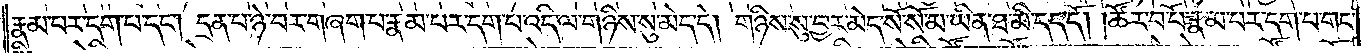རྣམ་པར་དག་པ་དང༌། དྲན་པ་ཉེ་བར་གཞག་པ་རྣམ་པར་དག་པ་འདི་ལ་གཉིས་སུ་མེད་དེ། གཉིས་སུ་བྱར་མེད་སོ་སོ་མ་ཡིན་ཐ་མི་དད་དོ། །ཚོར་བ་པོ་རྣམ་པར་དག་པ་གང་
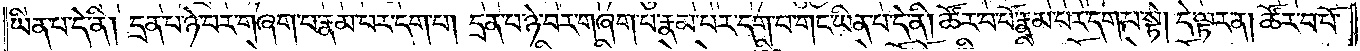ཡིན་པ་དེ་ནི། དྲན་པ་ཉེ་བར་གཞག་པ་རྣམ་པར་དག་པ། དྲན་པ་ཉེ་བར་གཞག་པ་རྣམ་པར་དག་པ་གང་ཡིན་པ་དེ་ནི། ཚོར་བ་པོ་རྣམ་པར་དག་པ་སྟེ། དེ་ལྟར་ན། ཚོར་བ་པོ་
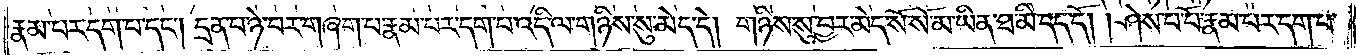རྣམ་པར་དག་པ་དང༌། དྲན་པ་ཉེ་བར་གཞག་པ་རྣམ་པར་དག་པ་འདི་ལ་གཉིས་སུ་མེད་དེ། གཉིས་སུ་བྱར་མེད་སོ་སོ་མ་ཡིན་ཐ་མི་དད་དོ། །ཤེས་པ་པོ་རྣམ་པར་དག་པ་
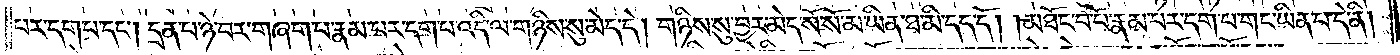པར་དག་པ་དང༌། དྲན་པ་ཉེ་བར་གཞག་པ་རྣམ་པར་དག་པ་འདི་ལ་གཉིས་སུ་མེད་དེ། གཉིས་སུ་བྱར་མེད་སོ་སོ་མ་ཡིན་ཐ་མི་དད་དོ། །མཐོང་བ་པོ་རྣམ་པར་དག་པ་གང་ཡིན་པ་དེ་ནི།
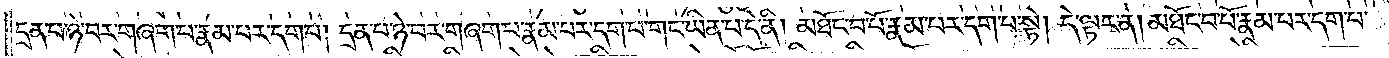དྲན་པ་ཉེ་བར་བཞག་པ་རྣམ་པར་དག་པ། དྲན་པ་ཉེ་བར་བཞག་པ་རྣམ་པར་དག་པ་གང་ཡིན་པ་དེ་ནི། མཐོང་བ་པོ་རྣམ་པར་དག་པ་སྟེ། དེ་ལྟར་ན། མཐོང་བ་པོ་རྣམ་པར་དག་པ་
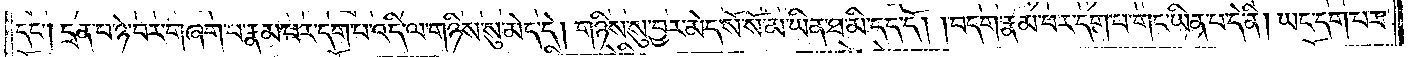དང༌། དྲན་པ་ཉེ་བར་བཞག་པ་རྣམ་པར་དག་པ་འདི་ལ་གཉིས་སུ་མེད་དེ། གཉིས་སུ་བྱར་མེད་སོ་སོ་མ་ཡིན་ཐ་མི་དད་དོ། །བདག་རྣམ་པར་དག་པ་གང་ཡིན་པ་དེ་ནི། ཡང་དག་པར་
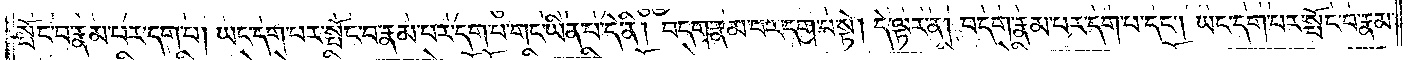སྤོང་བ་རྣམ་པར་དག་པ། ཡང་དག་པར་སྤོང་བ་རྣམ་པར་དག་པ་གང་ཡིན་པ་དེ་ནི། བདག་རྣམ་པར་དག་པ་སྟེ། དེ་ལྟར་ན། བདག་རྣམ་པར་དག་པ་དང༌། ཡང་དག་པར་སྤོང་བ་རྣམ་
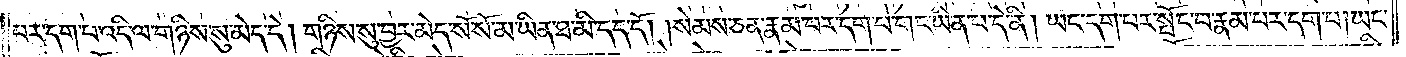པར་དག་པ་འདི་ལ་གཉིས་སུ་མེད་དེ། གཉིས་སུ་བྱར་མེད་སོ་སོ་མ་ཡིན་ཐ་མི་དད་དོ། །སེམས་ཅན་རྣམ་པར་དག་པ་གང་ཡིན་པ་དེ་ནི། ཡང་དག་པར་སྤོང་བ་རྣམ་པར་དག་པ། ཡང་
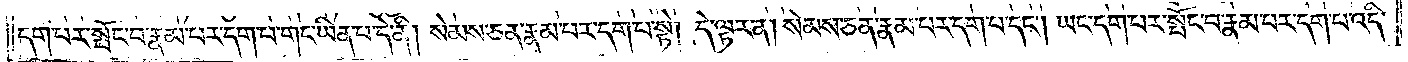དག་པར་སྤོང་བ་རྣམ་པར་དག་པ་གང་ཡིན་པ་དེ་ནི། སེམས་ཅན་རྣམ་པར་དག་པ་སྟེ། དེ་ལྟར་ན། སེམས་ཅན་རྣམ་པར་དག་པ་དང༌། ཡང་དག་པར་སྤོང་བ་རྣམ་པར་དག་པ་འདི་
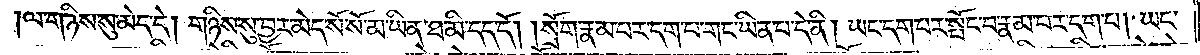ལ་གཉིས་སུ་མེད་དེ། གཉིས་སུ་བྱར་མེད་སོ་སོ་མ་ཡིན་ཐ་མི་དད་དོ། །སྲོག་རྣམ་པར་དག་པ་གང་ཡིན་པ་དེ་ནི། ཡང་དག་པར་སྤོང་བ་རྣམ་པར་དག་པ། ཡང་
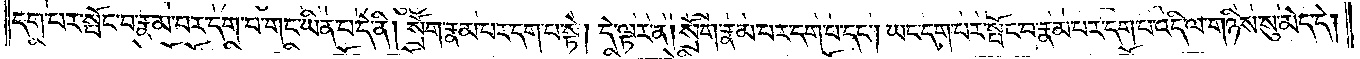དག་པར་སྤོང་བ་རྣམ་པར་དག་པ་གང་ཡིན་པ་དེ་ནི། སྲོག་རྣམ་པར་དག་པ་སྟེ། དེ་ལྟར་ན། སྲོག་རྣམ་པར་དག་པ་དང༌། ཡང་དག་པར་སྤོང་བ་རྣམ་པར་དག་པ་འདི་ལ་གཉིས་སུ་མེད་དེ།
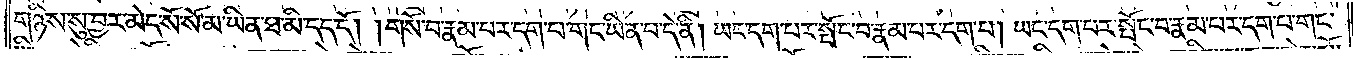གཉིས་སུ་བྱར་མེད་སོ་སོ་མ་ཡིན་ཐ་མི་དད་དོ། །གསོ་བ་རྣམ་པར་དག་པ་གང་ཡིན་པ་དེ་ནི། ཡང་དག་པར་སྤོང་བ་རྣམ་པར་དག་པ། ཡང་དག་པར་སྤོང་བ་རྣམ་པར་དག་པ་གང་
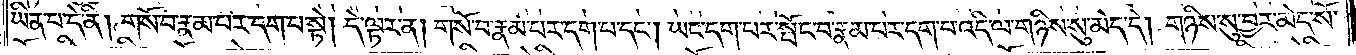ཡིན་པ་དེ་ནི། གསོ་བ་རྣམ་པར་དག་པ་སྟེ། དེ་ལྟར་ན། གསོ་བ་རྣམ་པར་དག་པ་དང༌། །ཡང་དག་པར་སྤོང་བ་རྣམ་པར་དག་པ་འདི་ལ་གཉིས་སུ་མེད་དེ། གཉིས་སུ་བྱར་མེད་སོ་
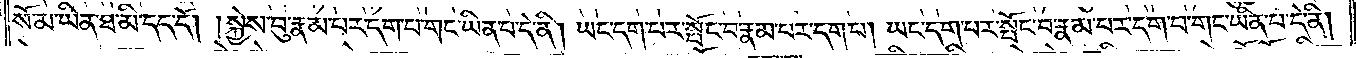སོ་མ་ཡིན་ཐ་མི་དད་དོ། །སྐྱེས་བུ་རྣམ་པར་དག་པ་གང་ཡིན་པ་དེ་ནི། ཡང་དག་པར་སྤོང་བ་རྣམ་པར་དག་པ། ཡང་དག་པར་སྤོང་བ་རྣམ་པར་དག་པ་གང་ཡིན་པ་དེ་ནི།
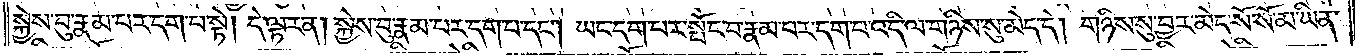སྐྱེས་བུ་རྣམ་པར་དག་པ་སྟེ། དེ་ལྟར་ན། སྐྱེས་བུ་རྣམ་པར་དག་པ་དང༌། ཡང་དག་པར་སྤོང་བ་རྣམ་པར་དག་པ་འདི་ལ་གཉིས་སུ་མེད་དེ། གཉིས་སུ་བྱར་མེད་སོ་སོ་མ་ཡིན་
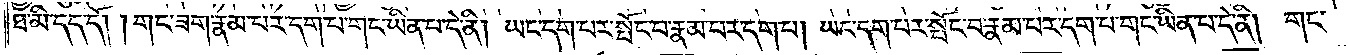ཐ་མི་དད་དོ། །གང་ཟག་རྣམ་པར་དག་པ་གང་ཡིན་པ་དེ་ནི། ཡང་དག་པར་སྤོང་བ་རྣམ་པར་དག་པ། ཡང་དག་པར་སྤོང་བ་རྣམ་པར་དག་པ་གང་ཡིན་པ་དེ་ནི། གང་
